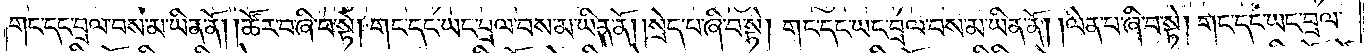གང་དང་ཡང་བྲལ་བས་མ་ཡིན་ནོ། །ཚོར་བ་ཞི་བ་སྟེ། གང་དང་ཡང་བྲལ་བས་མ་ཡིན་ནོ། །སྲེད་པ་ཞི་བ་སྟེ། གང་དང་ཡང་བྲལ་བས་མ་ཡིན་ནོ། །ལེན་པ་ཞི་བ་སྟེ། གང་དང་ཡང་བྲལ་
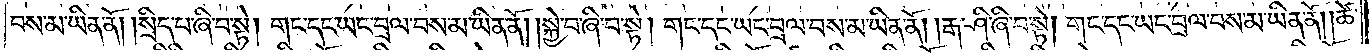བས་མ་ཡིན་ནོ། །སྲིད་པ་ཞི་བ་སྟེ། གང་དང་ཡང་བྲལ་བས་མ་ཡིན་ནོ། །སྐྱེ་བ་ཞི་བ་སྟེ། གང་དང་ཡང་བྲལ་བས་མ་ཡིན་ནོ། །རྒ་ཤི་ཞི་བ་སྟེ། གང་དང་ཡང་བྲལ་བས་མ་ཡིན་ནོ། །ཚེ་
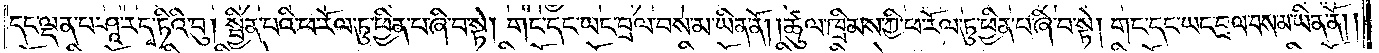དང་ལྡན་པ་ཤཱ་ར་དྭ་ཏིའི་བུ། སྦྱིན་པའི་ཕ་རོལ་ཏུ་ཕྱིན་པ་ཞི་བ་སྟེ། གང་དང་ཡང་བྲལ་བས་མ་ཡིན་ནོ། །ཚུལ་ཁྲིམས་ཀྱི་ཕ་རོལ་ཏུ་ཕྱིན་པ་ཞི་བ་སྟེ། གང་དང་ཡང་བྲལ་བས་མ་ཡིན་ནོ། །
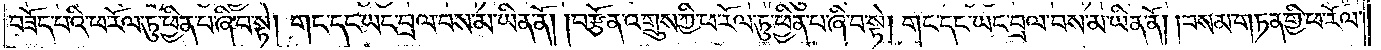བཟོད་པའི་ཕ་རོལ་ཏུ་ཕྱིན་པ་ཞི་བ་སྟེ། གང་དང་ཡང་བྲལ་བས་མ་ཡིན་ནོ། །བརྩོན་འགྲུས་ཀྱི་ཕ་རོལ་ཏུ་ཕྱིན་པ་ཞི་བ་སྟེ། གང་དང་ཡང་བྲལ་བས་མ་ཡིན་ནོ། །བསམ་གཏན་གྱི་ཕ་རོལ་
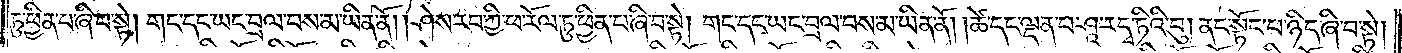ཏུ་ཕྱིན་པ་ཞི་བ་སྟེ། གང་དང་ཡང་བྲལ་བས་མ་ཡིན་ནོ། །ཤེས་རབ་ཀྱི་ཕ་རོལ་ཏུ་ཕྱིན་པ་ཞི་བ་སྟེ། གང་དང་ཡང་བྲལ་བས་མ་ཡིན་ནོ། །ཚེ་དང་ལྡན་པ་ཤཱ་ར་དྭ་ཏིའི་བུ། ནང་སྟོང་པ་ཉིད་ཞི་བ་སྟེ།
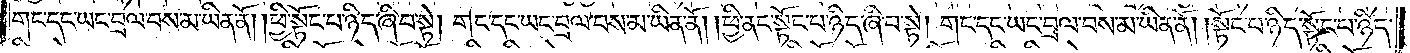གང་དང་ཡང་བྲལ་བས་མ་ཡིན་ནོ། །ཕྱི་སྟོང་པ་ཉིད་ཞི་བ་སྟེ། གང་དང་ཡང་བྲལ་བས་མ་ཡིན་ནོ། །ཕྱི་ནང་སྟོང་པ་ཉིད་ཞི་བ་སྟེ། གང་དང་ཡང་བྲལ་བས་མ་ཡིན་ནོ། །སྟོང་པ་ཉིད་སྟོང་པ་ཉིད་
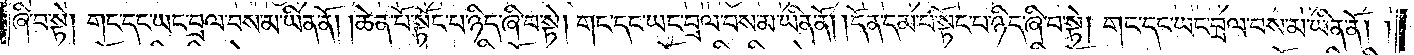ཞི་བ་སྟེ། གང་དང་ཡང་བྲལ་བས་མ་ཡིན་ནོ། །ཆེན་པོ་སྟོང་པ་ཉིད་ཞི་བ་སྟེ། གང་དང་ཡང་བྲལ་བས་མ་ཡིན་ནོ། །དོན་དམ་པ་སྟོང་པ་ཉིད་ཞི་བ་སྟེ། གང་དང་ཡང་བྲལ་བས་མ་ཡིན་ནོ། །
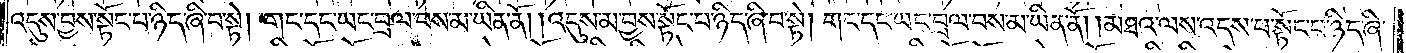འདུས་བྱས་སྟོང་པ་ཉིད་ཞི་བ་སྟེ། གང་དང་ཡང་བྲལ་བས་མ་ཡིན་ནོ། །འདུས་མ་བྱས་སྟོང་པ་ཉིད་ཞི་བ་སྟེ། གང་དང་ཡང་བྲལ་བས་མ་ཡིན་ནོ། །མཐའ་ལས་འདས་པ་སྟོང་པ་ཉིད་ཞི་
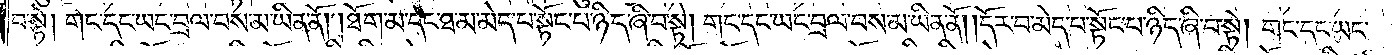བ་སྟེ། གང་དང་ཡང་བྲལ་བས་མ་ཡིན་ནོ། །ཐོག་མ་དང་ཐ་མ་མེད་པ་སྟོང་པ་ཉིད་ཞི་བ་སྟེ། གང་དང་ཡང་བྲལ་བས་མ་ཡིན་ནོ། །དོར་བ་མེད་པ་སྟོང་པ་ཉིད་ཞི་བ་སྟེ། གང་དང་ཡང་
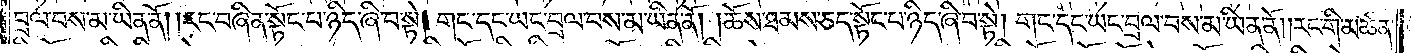བྲལ་བས་མ་ཡིན་ནོ། །རང་བཞིན་སྟོང་པ་ཉིད་ཞི་བ་སྟེ། གང་དང་ཡང་བྲལ་བས་མ་ཡིན་ནོ། །ཆོས་ཐམས་ཅད་སྟོང་པ་ཉིད་ཞི་བ་སྟེ། གང་དང་ཡང་བྲལ་བས་མ་ཡིན་ནོ། །རང་གི་མཚན་
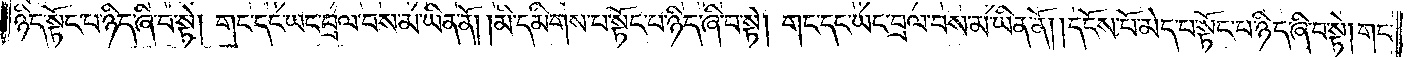ཉིད་སྟོང་པ་ཉིད་ཞི་བ་སྟེ། གང་དང་ཡང་བྲལ་བས་མ་ཡིན་ནོ། །མི་དམིགས་པ་སྟོང་པ་ཉིད་ཞི་བ་སྟེ། གང་དང་ཡང་བྲལ་བས་མ་ཡིན་ནོ། །དངོས་པོ་མེད་པ་སྟོང་པ་ཉིད་ཞི་བ་སྟེ། གང་
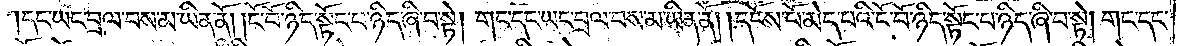དང་ཡང་བྲལ་བས་མ་ཡིན་ནོ། །ངོ་བོ་ཉིད་སྟོང་པ་ཉིད་ཞི་བ་སྟེ། གང་དང་ཡང་བྲལ་བས་མ་ཡིན་ནོ། །དངོས་པོ་མེད་པའི་ངོ་བོ་ཉིད་སྟོང་པ་ཉིད་ཞི་བ་སྟེ། གང་དང་
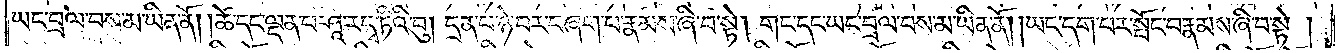ཡང་བྲལ་བས་མ་ཡིན་ནོ། །ཚེ་དང་ལྡན་པ་ཤཱ་ར་དྭ་ཏིའི་བུ། དྲན་པ་ཉེ་བར་བཞག་པ་རྣམས་ཞི་བ་སྟེ། གང་དང་ཡང་བྲལ་བས་མ་ཡིན་ནོ། །ཡང་དག་པར་སྤོང་བ་རྣམས་ཞི་བ་སྟེ།
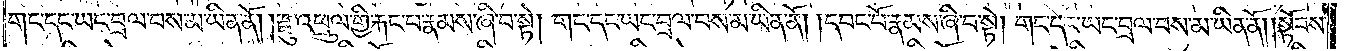གང་དང་ཡང་བྲལ་བས་མ་ཡིན་ནོ། །རྫུ་འཕྲུལ་གྱི་རྐང་པ་རྣམས་ཞི་བ་སྟེ། གང་དང་ཡང་བྲལ་བས་མ་ཡིན་ནོ། །དབང་པོ་རྣམས་ཞི་བ་སྟེ། གང་དང་ཡང་བྲལ་བས་མ་ཡིན་ནོ། །སྟོབས་
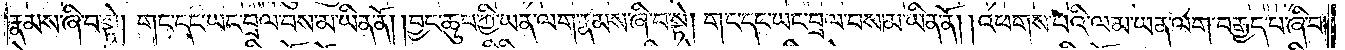རྣམས་ཞི་བ་སྟེ། གང་དང་ཡང་བྲལ་བས་མ་ཡིན་ནོ། །བྱང་ཆུབ་ཀྱི་ཡན་ལག་རྣམས་ཞི་བ་སྟེ། གང་དང་ཡང་བྲལ་བས་མ་ཡིན་ནོ། །འཕགས་པའི་ལམ་ཡན་ལག་བརྒྱད་པ་ཞི་བ་
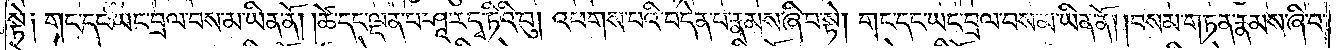སྟེ། གང་དང་ཡང་བྲལ་བས་མ་ཡིན་ནོ། །ཚེ་དང་ལྡན་པ་ཤཱ་ར་དྭ་ཏིའི་བུ། འཕགས་པའི་བདེན་པ་རྣམས་ཞི་བ་སྟེ། གང་དང་ཡང་བྲལ་བས་མ་ཡིན་ནོ། །བསམ་གཏན་རྣམས་ཞི་བ་
